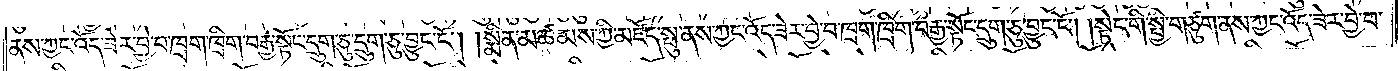ནས་ཀྱང་འོད་ཟེར་བྱེ་བ་ཁྲག་ཁྲིག་བརྒྱ་སྟོང་དྲུག་ཅུ་དྲུག་ཅུ་བྱུང་ངོ༌། །སྨིན་མཚམས་ཀྱི་མཛོད་སྤུ་ནས་ཀྱང་འོད་ཟེར་བྱེ་བ་ཁྲག་ཁྲིག་བརྒྱ་སྟོང་དྲུག་ཅུ་བྱུང་ངོ༌། །སྟེང་གི་སྤྱི་གཙུག་ནས་ཀྱང་འོད་ཟེར་བྱེ་བ་
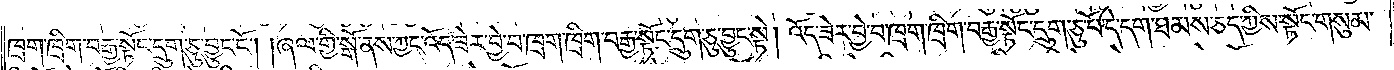ཁྲག་ཁྲིག་བརྒྱ་སྟོང་དྲུག་ཅུ་བྱུང་ངོ༌། །ཞལ་གྱི་སྒོ་ནས་ཀྱང་འོད་ཟེར་བྱེ་བ་ཁྲག་ཁྲིག་བརྒྱ་སྟོང་དྲུག་ཅུ་བྱུང་སྟེ། འོད་ཟེར་བྱེ་བ་ཁྲག་ཁྲིག་བརྒྱ་སྟོང་དྲུག་ཅུ་པོ་དེ་དག་ཐམས་ཅད་ཀྱིས་སྟོང་གསུམ་
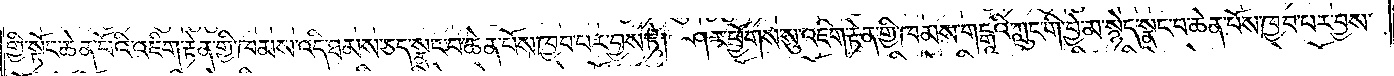གྱི་སྟོང་ཆེན་པོའི་འཇིག་རྟེན་གྱི་ཁམས་འདི་ཐམས་ཅད་སྣང་བ་ཆེན་པོས་ཁྱབ་པར་བྱས་ཏེ། ཤར་ཕྱོགས་སུ་འཇིག་རྟེན་གྱི་ཁམས་གངྒཱའི་ཀླུང་གི་བྱེ་མ་སྙེད་སྣང་བ་ཆེན་པོས་ཁྱབ་པར་བྱས་
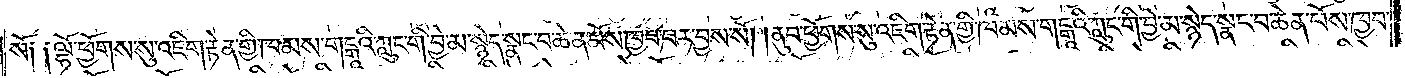སོ༑ ༑ལྷོ་ཕྱོགས་སུ་འཇིག་རྟེན་གྱི་ཁམས་གངྒཱའི་ཀླུང་གི་བྱེ་མ་སྙེད་སྣང་བ་ཆེན་པོས་ཁྱབ་པར་བྱས་སོ། །ནུབ་ཕྱོགས་སུ་འཇིག་རྟེན་གྱི་ཁམས་གངྒཱའི་ཀླུང་གི་བྱེ་མ་སྙེད་སྣང་བ་ཆེན་པོས་ཁྱབ་
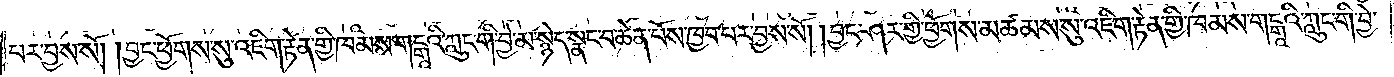པར་བྱས་སོ། །བྱང་ཕྱོགས་སུ་འཇིག་རྟེན་གྱི་ཁམས་གངྒཱའི་ཀླུང་གི་བྱེ་མ་སྙེད་སྣང་བ་ཆེན་པོས་ཁྱབ་པར་བྱས་སོ། །བྱང་ཤར་གྱི་ཕྱོགས་མཚམས་སུ་འཇིག་རྟེན་གྱི་ཁམས་གངྒཱའི་ཀླུང་གི་བྱེ་
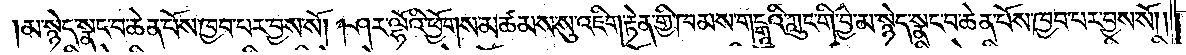མ་སྙེད་སྣང་བ་ཆེན་པོས་ཁྱབ་པར་བྱས་སོ། །ཤར་ལྷོའི་ཕྱོགས་མཚམས་སུ་འཇིག་རྟེན་གྱི་ཁམས་གངྒཱའི་ཀླུང་གི་བྱེ་མ་སྙེད་སྣང་བ་ཆེན་པོས་ཁྱབ་པར་བྱས་སོ། །
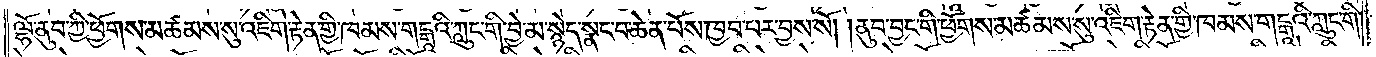ལྷོ་ནུབ་ཀྱི་ཕྱོགས་མཚམས་སུ་འཇིག་རྟེན་གྱི་ཁམས་གངྒཱའི་ཀླུང་གི་བྱེ་མ་སྙེད་སྣང་བ་ཆེན་པོས་ཁྱབ་པར་བྱས་སོ། །ནུབ་བྱང་གི་ཕྱོགས་མཚམས་སུ་འཇིག་རྟེན་གྱི་ཁམས་གངྒཱའི་ཀླུང་གི་
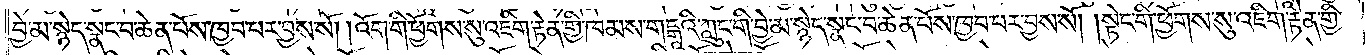བྱེ་མ་སྙེད་སྣང་བ་ཆེན་པོས་ཁྱབ་པར་བྱས་སོ། །འོག་གི་ཕྱོགས་སུ་འཇིག་རྟེན་གྱི་ཁམས་གངྒཱའི་ཀླུང་གི་བྱེ་མ་སྙེད་སྣང་བ་ཆེན་པོས་ཁྱབ་པར་བྱས་སོ། །སྟེང་གི་ཕྱོགས་སུ་འཇིག་རྟེན་གྱི་
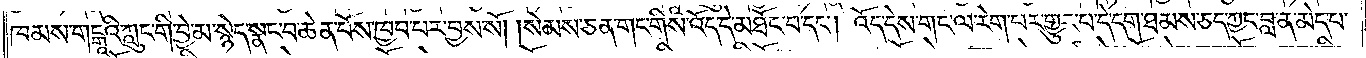ཁམས་གངྒཱའི་ཀླུང་གི་བྱེ་མ་སྙེད་སྣང་བ་ཆེན་པོས་ཁྱབ་པར་བྱས་སོ། །སེམས་ཅན་གང་གིས་འོད་དེ་མཐོང་བ་དང༌། འོད་དེས་གང་ལ་རེག་པར་གྱུར་པ་དེ་དག་ཐམས་ཅད་ཀྱང་བླ་ན་མེད་པ་
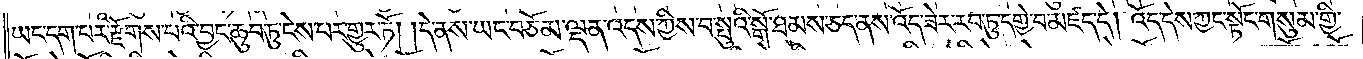ཡང་དག་པར་རྫོགས་པའི་བྱང་ཆུབ་ཏུ་ངེས་པར་གྱུར་ཏོ། །དེ་ནས་ཡང་བཅོམ་ལྡན་འདས་ཀྱིས་བ་སྤུའི་སྒོ་ཐམས་ཅད་ནས་འོད་ཟེར་རབ་ཏུ་དགྱེ་བ་མཛད་དེ། འོད་དེས་ཀྱང་སྟོང་གསུམ་གྱི་
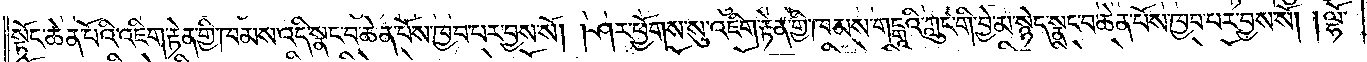སྟོང་ཆེན་པོའི་འཇིག་རྟེན་གྱི་ཁམས་འདི་སྣང་བ་ཆེན་པོས་ཁྱབ་པར་བྱས་སོ། །ཤར་ཕྱོགས་སུ་འཇིག་རྟེན་གྱི་ཁམས་གངྒཱའི་ཀླུང་གི་བྱེ་མ་སྙེད་སྣང་བ་ཆེན་པོས་ཁྱབ་པར་བྱས་སོ། །ལྷོ་
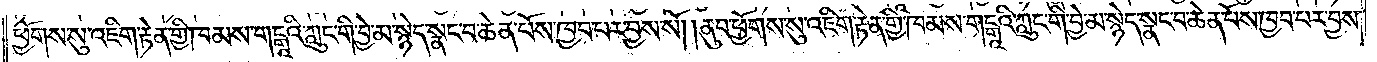ཕྱོགས་སུ་འཇིག་རྟེན་གྱི་ཁམས་གངྒཱའི་ཀླུང་གི་བྱེ་མ་སྙེད་སྣང་བ་ཆེན་པོས་ཁྱབ་པར་བྱས་སོ། །ནུབ་ཕྱོགས་སུ་འཇིག་རྟེན་གྱི་ཁམས་གངྒཱའི་ཀླུང་གི་བྱེ་མ་སྙེད་སྣང་བ་ཆེན་པོས་ཁྱབ་པར་བྱས་
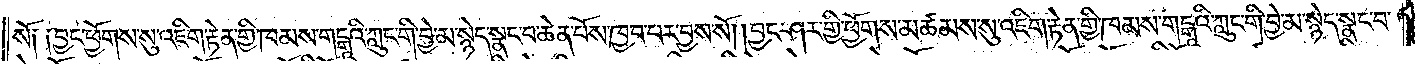སོ༑ ༑བྱང་ཕྱོགས་སུ་འཇིག་རྟེན་གྱི་ཁམས་གངྒཱའི་ཀླུང་གི་བྱེ་མ་སྙེད་སྣང་བ་ཆེན་པོས་ཁྱབ་པར་བྱས་སོ། །བྱང་ཤར་གྱི་ཕྱོགས་མཚམས་སུ་འཇིག་རྟེན་གྱི་ཁམས་གངྒཱའི་ཀླུང་གི་བྱེ་མ་སྙེད་སྣང་བ་
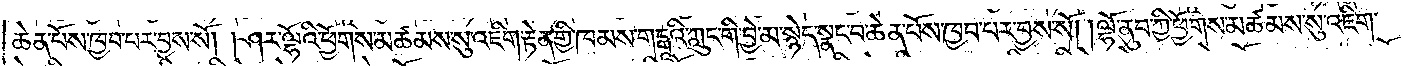ཆེན་པོས་ཁྱབ་པར་བྱས་སོ། །ཤར་ལྷོའི་ཕྱོགས་མཚམས་སུ་འཇིག་རྟེན་གྱི་ཁམས་གངྒཱའི་ཀླུང་གི་བྱེ་མ་སྙེད་སྣང་བ་ཆེན་པོས་ཁྱབ་པར་བྱས་སོ། །ལྷོ་ནུབ་ཀྱི་ཕྱོགས་མཚམས་སུ་འཇིག་
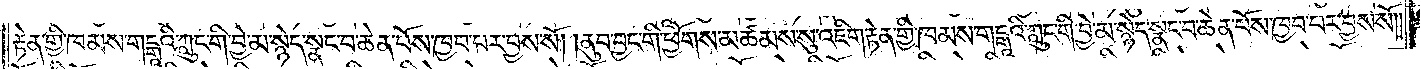རྟེན་གྱི་ཁམས་གངྒཱའི་ཀླུང་གི་བྱེ་མ་སྙེད་སྣང་བ་ཆེན་པོས་ཁྱབ་པར་བྱས་སོ། །ནུབ་བྱང་གི་ཕྱོགས་མཚམས་སུ་འཇིག་རྟེན་གྱི་ཁམས་གངྒཱའི་ཀླུང་གི་བྱེ་མ་སྙེད་སྣང་བ་ཆེན་པོས་ཁྱབ་པར་བྱས་སོ༎
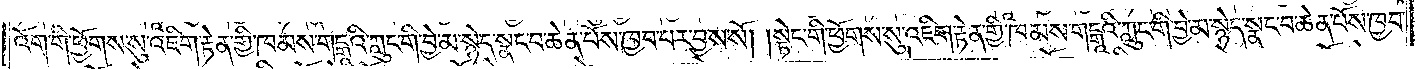འོག་གི་ཕྱོགས་སུ་འཇིག་རྟེན་གྱི་ཁམས་གངྒཱའི་ཀླུང་གི་བྱེ་མ་སྙེད་སྣང་བ་ཆེན་པོས་ཁྱབ་པར་བྱས་སོ། །སྟེང་གི་ཕྱོགས་སུ་འཇིག་རྟེན་གྱི་ཁམས་གངྒཱའི་ཀླུང་གི་བྱེ་མ་སྙེད་སྣང་བ་ཆེན་པོས་ཁྱབ་
